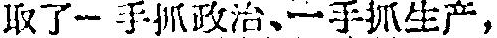取了一手抓政治、一手抓生产，
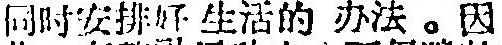同时安排好生活的办法。因
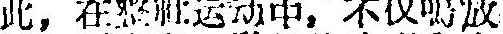此，在整社运动中，不仅鳴放
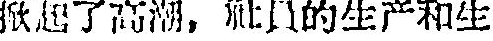掀起了高潮，社員的生产和生
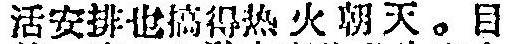活安排也搞得热火朝天。目
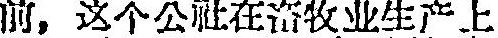前，这个公社在畜牧业生产上
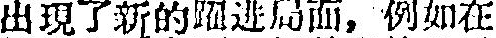出現了新的躍进局面，例如在
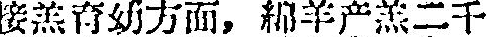接羔育幼方面，綿羊产羔二千
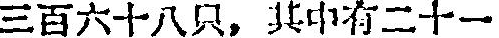三百六十八只，其中有二十一
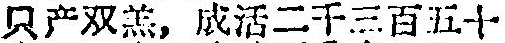只产双羔，成活二千三百五十
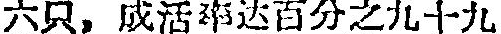六只，成活率达百分之九十九
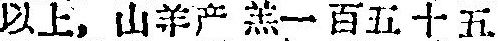以上，山羊产羔一百五十五
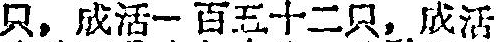只，成活一百五十二只，成活
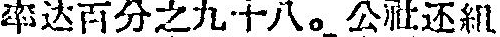率达百分之九十八。公社还組
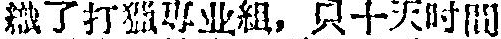織了打獵專业組，只十天时間
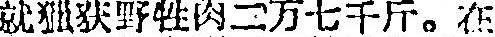就獵获野牲肉二万七千斤。在
